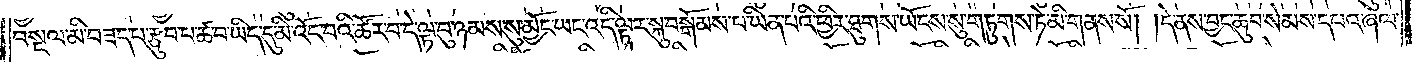བསྔལ་མི་བཟད་པ་རྩུབ་པ་ཚ་བ་ཡིད་དུ་མི་འོང་བའི་ཚོར་བ་དེ་ལྟ་བུ་ཉམས་སུ་མྱོང་ཡང་འདི་ལྟར་སྐུ་བསྒོམས་པ་ཡིན་པའི་ཕྱིར་ཐུགས་ཡོངས་སུ་གཏུགས་ཏེ་མི་གནས་སོ། །དེ་ནས་བྱང་ཆུབ་སེམས་དཔའ་ཞལ་
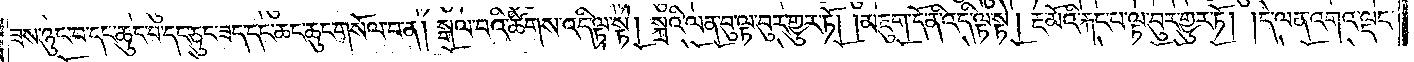ཟས་ཉུང་བ་དང་ཆུང་བ་དང་ཅུང་ཟད་དང་ཆང་ཆུང་གསོལ་བ་ན། སྒལ་བའི་ཚིགས་འདི་ལྟ་སྟེ། སྐྲའི་ལན་བུ་ལྟ་བུར་གྱུར་ཏོ། །མཇུག་དོ་ནི་འདི་ལྟ་སྟེ། རྔ་མོའི་རྐང་པ་ལྟ་བུར་གྱུར་ཏོ། །དེ་ལན་འགའ་ལྡང་
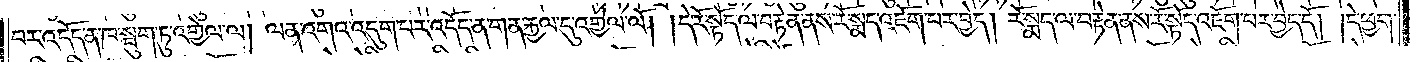བར་འདོད་ན་ཁ་སྦུག་ཏུ་འགྱེལ་ལ། ལན་འགའ་འདུག་པར་འདོད་ན་གན་རྐྱལ་དུ་འགྱེལ་ལོ། །དེ་རོ་སྟོད་ལ་བརྟེན་ནས་རོ་སྨད་འཇོག་པར་བྱེད། རོ་སྨད་ལ་བརྟེན་ནས་རོ་སྟོད་འཇོག་པར་བྱེད་དོ། །དེ་ཕྱག་
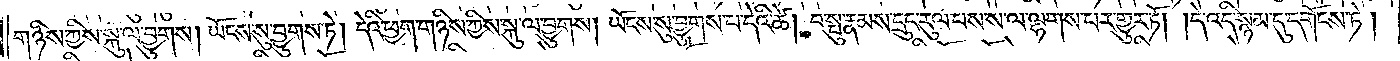གཉིས་ཀྱིས་སྐུ་ལ་བྱུགས། ཡོངས་སུ་བྱུགས་ཏེ། དེའི་ཕྱག་གཉིས་ཀྱིས་སྐུ་ལ་བྱུགས། ཡོངས་སུ་བྱུགས་པ་དེའི་ཚེ། བ་སྤུ་རྣམས་དྲུང་རུལ་པས་ས་ལ་ལྷགས་པར་གྱུར་ཏོ། །དེ་འདི་སྙམ་དུ་དགོངས་ཏེ།
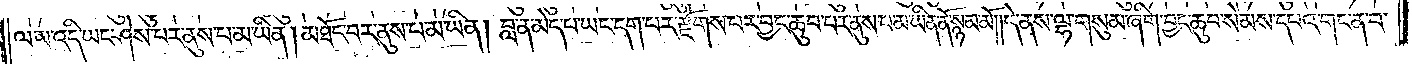ལམ་འདི་ཡང་ཤེས་པར་ནུས་པ་མ་ཡིན། མཐོང་བར་ནུས་པ་མ་ཡིན། བླ་ན་མེད་པ་ཡང་དག་པར་རྫོགས་པར་བྱང་ཆུབ་པར་ནུས་པ་མ་ཡིན་ནོ་སྙམ་མོ། །དེ་ནས་ལྷ་གསུམ་ཞིག་བྱང་ཆུབ་སེམས་དཔའ་གང་ན་བ་
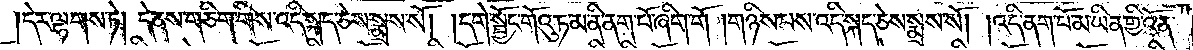།དེར་ལྷགས་ཏེ། དེ་ནས་གཅིག་གིས་འདི་སྐད་ཅེས་སྨྲས་སོ། །དགེ་སྦྱོང་གོའུ་ཏ་མ་ནི་ནག་པོ་ཞིག་གོ །གཉིས་པས་འདི་སྐད་ཅེས་སྨྲས་སོ། །འདི་ནག་པོ་མ་ཡིན་གྱི་འོན་
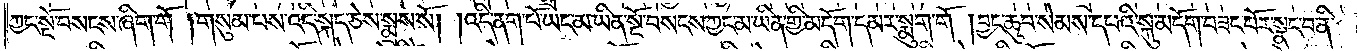ཀྱང་སྔོ་བསངས་ཞིག་གོ །གསུམ་པས་འདི་སྐད་ཅེས་སྨྲས་སོ། །འདི་ནག་པོ་ཡང་མ་ཡིན་སྔོ་བསངས་ཀྱང་མ་ཡིན་གྱི་མདོག་དམར་སྨུག་གོ །བྱང་ཆུབ་སེམས་དཔའི་སྐུ་མདོག་བཟང་པོར་སྣང་བ་ནི་
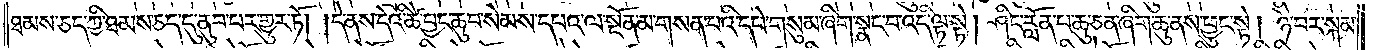ཐམས་ཅད་ཀྱི་ཐམས་ཅད་དུ་ནུབ་པར་གྱུར་ཏོ། །དེ་ནས་དེའི་ཚེ་བྱང་ཆུབ་སེམས་དཔའ་ལ་སྔོན་མ་གསན་པའི་དཔེ་གསུམ་ཞིག་སྣང་བ་འདི་ལྟ་སྟེ། ཤིང་རློན་པ་ཆུ་ཅན་ཞིག་ཆུ་ནས་ཕྱུང་སྟེ། ཉེ་བར་སྐམ་
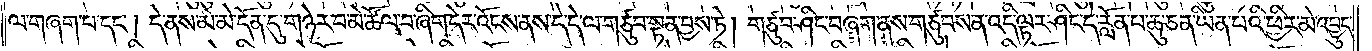ལ་གཞག་པ་དང༌། དེ་ནས་མི་མེ་དོན་དུ་གཉེར་བ་མེ་ཚོལ་བ་ཞིག་དེར་འོངས་ནས་དེ་དེ་ལ་གཙུབ་སྟན་བྱས་ཏེ། གཙུབ་ཤིང་བཞག་ནས་གཙུབས་ན་འདི་ལྟར་ཤིང་དེ་རློན་པ་ཆུ་ཅན་ཡིན་པའི་ཕྱིར་མེ་འབྱུང་
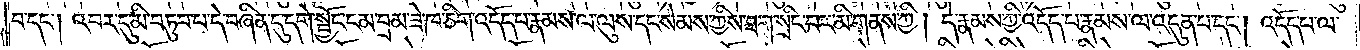བ་དང༌། འབར་དུ་མི་བཏུབ་པ་དེ་བཞིན་དུ་དགེ་སྦྱོང་ངམ་བྲམ་ཟེ་ཁ་ཅིག་འདོད་པ་རྣམས་ལ་ལུས་དང་སེམས་ཀྱིས་ཐག་སྲིང་བར་མི་གནས་ཀྱི། དེ་རྣམས་ཀྱི་འདོད་པ་རྣམས་ལ་འདུན་པ་དང༌། འདོད་པ་ལ་
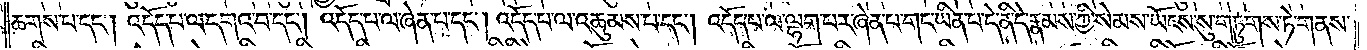ཆགས་པ་དང༌། འདོད་པ་ལ་དགའ་བ་དང༌། འདོད་པ་ལ་ཞེན་པ་དང༌། འདོད་པ་ལ་འཆུམས་པ་དང༌། འདོད་པ་ལ་ལྷག་པར་ཞེན་པ་གང་ཡིན་པ་དེ་ནི་དེ་རྣམས་ཀྱི་སེམས་ཡོངས་སུ་གཏུགས་ཏེ་གནས་
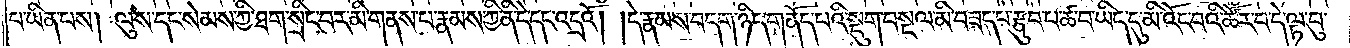པ་ཡིན་པས། ལུས་དང་སེམས་ཀྱི་ཐག་སྲིང་བར་མི་གནས་པ་རྣམས་ཀྱི་ནི་དེ་དང་འདྲའོ། །དེ་རྣམས་བདག་ཉིད་གནོད་པའི་སྡུག་བསྔལ་མི་བཟད་པ་རྩུབ་པ་ཚ་བ་ཡིད་དུ་མི་འོང་བའི་ཚོར་བ་དེ་ལྟ་བུ་
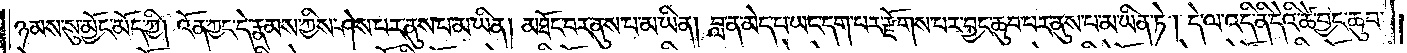ཉམས་སུ་མྱོང་མོད་ཀྱི། འོན་ཀྱང་དེ་རྣམས་ཀྱིས་ཤེས་པར་ནུས་པ་མ་ཡིན། མཐོང་བར་ནུས་པ་མ་ཡིན། བླ་ན་མེད་པ་ཡང་དག་པར་རྫོགས་པར་བྱང་ཆུབ་པར་ནུས་པ་མ་ཡིན་ཏེ། དེ་ལ་འདི་ནི་དེའི་ཚེ་བྱང་ཆུབ་
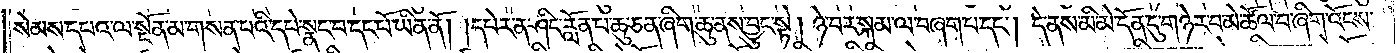སེམས་དཔའ་ལ་སྔོན་མ་གསན་པའི་དཔེ་སྣང་བ་དང་པོ་ཡིན་ནོ། །དཔེར་ན་ཤིང་རློན་པ་ཆུ་ཅན་ཞིག་ཆུ་ནས་བྱུང་སྟེ། ཉེ་བར་སྐམ་ལ་བཞག་པ་དང༌། དེ་ནས་མི་མེ་དོན་དུ་གཉེར་བ་མེ་ཚོལ་བ་ཞིག་འོངས་
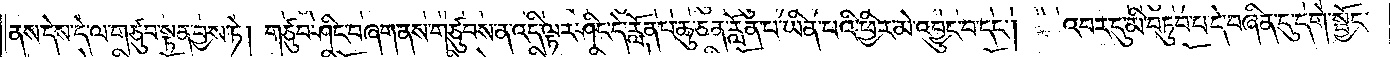ནས་དེས་དེ་ལ་གཙུབ་སྟན་བྱས་ཏེ། གཙུབ་ཤིང་བཞག་ནས་གཙུབས་ན་འདི་ལྟར་ཤིང་དེ་རློན་པ་ཆུ་ཅན་རློན་པ་ཡིན་པའི་ཕྱིར་མེ་འབྱུང་བ་དང༌། འབར་དུ་མི་བཏུབ་པ་དེ་བཞིན་དུ་དགེ་སྦྱོང་
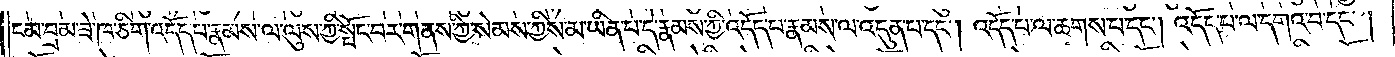ངམ་བྲམ་ཟེ་ཁ་ཅིག་འདོད་པ་རྣམས་ལ་ལུས་ཀྱི་སྤོང་བར་གནས་ཀྱི་སེམས་ཀྱིས་མ་ཡིན་པ་དེ་རྣམས་ཀྱི་འདོད་པ་རྣམས་ལ་འདུན་པ་དང༌། འདོད་པ་ལ་ཆགས་པ་དང༌། འདོད་པ་ལ་དགའ་བ་དང༌།
